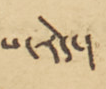པ་རེད་།
